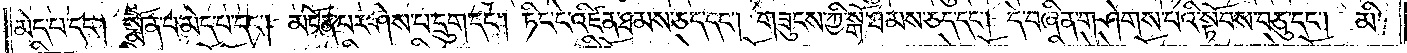མེད་པ་དང༌། སྨོན་པ་མེད་པ་དང༌། མངོན་པར་ཤེས་པ་དྲུག་དང༌། ཏིང་ངེ་འཛིན་ཐམས་ཅད་དང༌། གཟུངས་ཀྱི་སྒོ་ཐམས་ཅད་དང༌། དེ་བཞིན་གཤེགས་པའི་སྟོབས་བཅུ་དང༌། མི་
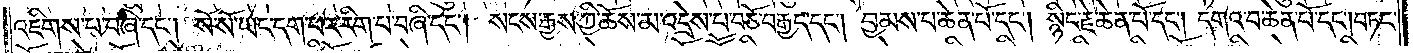འཇིགས་པ་བཞི་དང༌། སོ་སོ་ཡང་དག་པར་རིག་པ་བཞི་དང༌། སངས་རྒྱས་ཀྱི་ཆོས་མ་འདྲེས་པ་བཅོ་བརྒྱད་དང༌། བྱམས་པ་ཆེན་པོ་དང༌། སྙིང་རྗེ་ཆེན་པོ་དང༌། དགའ་བ་ཆེན་པོ་དང༌། བཏང་
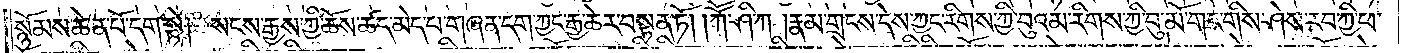སྙོམས་ཆེན་པོ་དག་སྟེ། སངས་རྒྱས་ཀྱི་ཆོས་ཚད་མེད་པ་གཞན་དག་ཀྱང་རྒྱ་ཆེར་བསྟན་ཏོ། །ཀཽ་ཤི་ཀ །རྣམ་གྲངས་དེས་ཀྱང་རིགས་ཀྱི་བུའམ་རིགས་ཀྱི་བུ་མོ་གང་གིས་ཤེས་རབ་ཀྱི་ཕ་
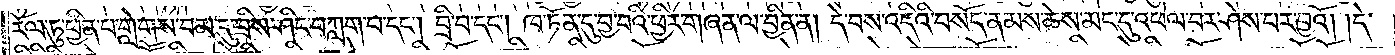རོལ་ཏུ་ཕྱིན་པ་གླེགས་བམ་དུ་བྲིས་ཤིང་བཀླག་པ་དང༌། བྲི་བ་དང༌། ཁ་ཏོན་དུ་བྱ་བའི་ཕྱིར་གཞན་ལ་བྱིན་ན། དེ་བས་འདིའི་བསོད་ནམས་ཆེས་མང་དུ་འཕེལ་བར་ཤེས་པར་བྱའོ། །དེ་
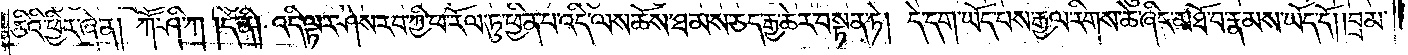ཅིའི་ཕྱིར་ཞེ་ན། ཀཽ་ཤི་ཀ །དེ་ནི། འདི་ལྟར་ཤེས་རབ་ཀྱི་ཕ་རོལ་ཏུ་ཕྱིན་པ་འདི་ལས་ཆོས་ཐམས་ཅད་རྒྱ་ཆེར་བསྟན་ཏེ། དེ་དག་ཡོད་པས་རྒྱལ་རིགས་ཆེ་ཞིང་མཐོ་བ་རྣམས་ཡོད་དོ། །བྲམ་
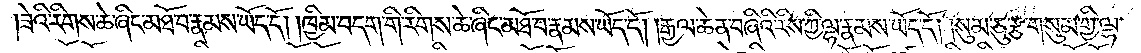ཟེའི་རིགས་ཆེ་ཞིང་མཐོ་བ་རྣམས་ཡོད་དོ། །ཁྱིམ་བདག་གི་རིགས་ཆེ་ཞིང་མཐོ་བ་རྣམས་ཡོད་དོ། །རྒྱལ་ཆེན་བཞིའི་རིས་ཀྱི་ལྷ་རྣམས་ཡོད་དོ། །སུམ་ཅུ་རྩ་གསུམ་གྱི་ལྷ་
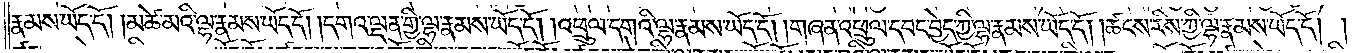རྣམས་ཡོད་དོ། །མཚེ་མའི་ལྷ་རྣམས་ཡོད་དོ། །དགའ་ལྡན་གྱི་ལྷ་རྣམས་ཡོད་དོ། །འཕྲུལ་དགའི་ལྷ་རྣམས་ཡོད་དོ། །གཞན་འཕྲུལ་དབང་བྱེད་ཀྱི་ལྷ་རྣམས་ཡོད་དོ། །ཚངས་རིས་ཀྱི་ལྷ་རྣམས་ཡོད་དོ། །
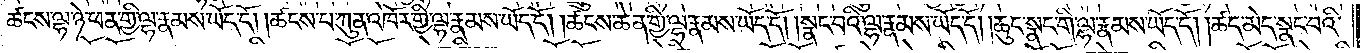ཚངས་ལྷ་ཉེ་ཕན་གྱི་ལྷ་རྣམས་ཡོད་དོ། །ཚངས་པ་ཀུན་འཁོར་གྱི་ལྷ་རྣམས་ཡོད་དོ། །ཚངས་ཆེན་གྱི་ལྷ་རྣམས་ཡོད་དོ། །སྣང་བའི་ལྷ་རྣམས་ཡོད་དོ། །ཆུང་སྣང་གི་ལྷ་རྣམས་ཡོད་དོ། །ཚད་མེད་སྣང་བའི་
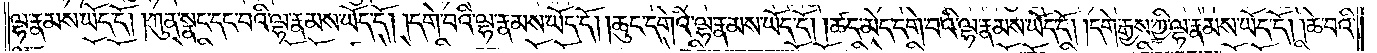ལྷ་རྣམས་ཡོད་དོ། །ཀུན་སྣང་དང་བའི་ལྷ་རྣམས་ཡོད་དོ། །དགེ་བའི་ལྷ་རྣམས་ཡོད་དོ། །ཆུང་དགེའི་ལྷ་རྣམས་ཡོད་དོ། །ཚད་མེད་དགེ་བའི་ལྷ་རྣམས་ཡོད་དོ། །དགེ་རྒྱས་ཀྱི་ལྷ་རྣམས་ཡོད་དོ། །ཆེ་བའི་
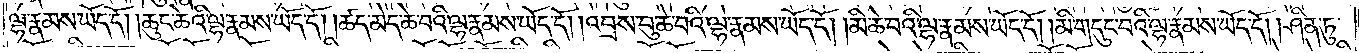ལྷ་རྣམས་ཡོད་དོ། །ཆུང་ཆེའི་ལྷ་རྣམས་ཡོད་དོ། །ཚད་མེད་ཆེ་བའི་ལྷ་རྣམས་ཡོད་དོ། །འབྲས་བུ་ཆེ་བའི་ལྷ་རྣམས་ཡོད་དོ། །མི་ཆེ་བའི་ལྷ་རྣམས་ཡོད་དོ། །མི་གདུང་བའི་ལྷ་རྣམས་ཡོད་དོ། །ཤིན་ཏུ་
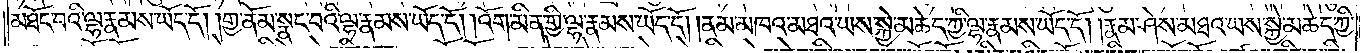མཐོང་བའི་ལྷ་རྣམས་ཡོད་དོ། །གྱ་ནོམ་སྣང་བའི་ལྷ་རྣམས་ཡོད་དོ། །འོག་མིན་གྱི་ལྷ་རྣམས་ཡོད་དོ། །ནམ་མཁའ་མཐའ་ཡས་སྐྱེ་མཆེད་ཀྱི་ལྷ་རྣམས་ཡོད་དོ། །རྣམ་ཤེས་མཐའ་ཡས་སྐྱེ་མཆེད་ཀྱི་
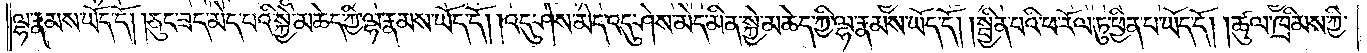ལྷ་རྣམས་ཡོད་དོ། །ཅུང་ཟད་མེད་པའི་སྐྱེ་མཆེད་ཀྱི་ལྷ་རྣམས་ཡོད་དོ། །འདུ་ཤེས་མེད་འདུ་ཤེས་མེད་སྐྱེ་མཆེད་ཀྱི་ལྷ་རྣམས་ཡོད་དོ། །སྦྱིན་པའི་ཕ་རོལ་ཏུ་ཕྱིན་པ་ཡོད་དོ། །ཚུལ་ཁྲིམས་ཀྱི་
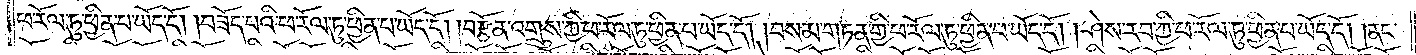ཕ་རོལ་ཏུ་ཕྱིན་པ་ཡོད་དོ། །བཟོད་པའི་ཕ་རོལ་ཏུ་ཕྱིན་པ་ཡོད་དོ། །བརྩོན་འགྲུས་ཀྱི་ཕ་རོལ་ཏུ་ཕྱིན་པ་ཡོད་དོ། །བསམ་གཏན་གྱི་ཕ་རོལ་ཏུ་ཕྱིན་པ་ཡོད་དོ། །ཤེས་རབ་ཀྱི་ཕ་རོལ་ཏུ་ཕྱིན་པ་ཡོད་དོ། །ནང་
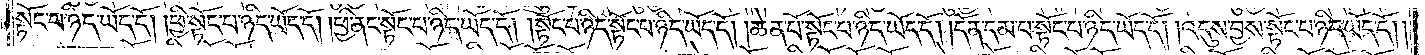སྟོང་པ་ཉིད་ཡོད་དོ། །ཕྱི་སྟོང་པ་ཉིད་ཡོད་དོ། །ཕྱི་ནང་སྟོང་པ་ཉིད་ཡོད་དོ། །སྟོང་པ་ཉིད་སྟོང་པ་ཉིད་ཡོད་དོ། །ཆེན་པོ་སྟོང་པ་ཉིད་ཡོད་དོ། །དོན་དམ་པ་སྟོང་པ་ཉིད་ཡོད་དོ། །འདུས་བྱས་སྟོང་པ་ཉིད་ཡོད་དོ། །
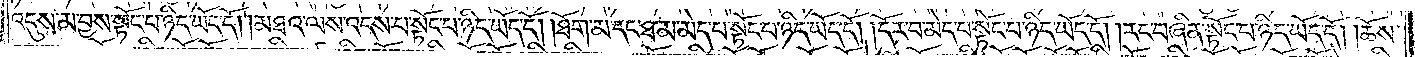འདུས་མ་བྱས་སྟོང་པ་ཉིད་ཡོད་དོ། །མཐའ་ལས་འདས་པ་སྟོང་པ་ཉིད་ཡོད་དོ། །ཐོག་མ་དང་ཐ་མ་མེད་པ་སྟོང་པ་ཉིད་ཡོད་དོ། །དོར་བ་མེད་པ་སྟོང་པ་ཉིད་ཡོད་དོ། །རང་བཞིན་སྟོང་པ་ཉིད་ཡོད་དོ། །ཆོས་
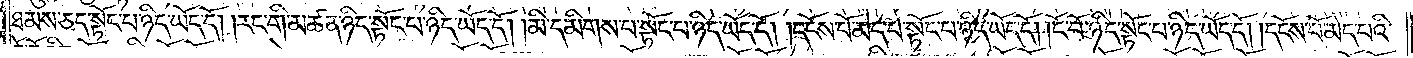ཐམས་ཅད་སྟོང་པ་ཉིད་ཡོད་དོ། །རང་གི་མཚན་ཉིད་སྟོང་པ་ཉིད་ཡོད་དོ། །མི་དམིགས་པ་སྟོང་པ་ཉིད་ཡོད་དོ། །དངོས་པོ་མེད་པ་སྟོང་པ་ཉིད་ཡོད་དོ། །ངོ་བོ་ཉིད་སྟོང་པ་ཉིད་ཡོད་དོ། །དངོས་པོ་མེད་པའི་
